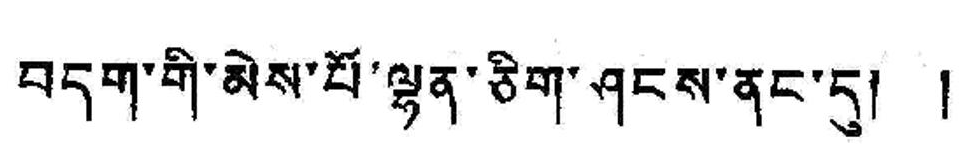བདག་གི་མེས་པོ་ལྷན་ཅིག་ཤངས་ནང་དུ། །
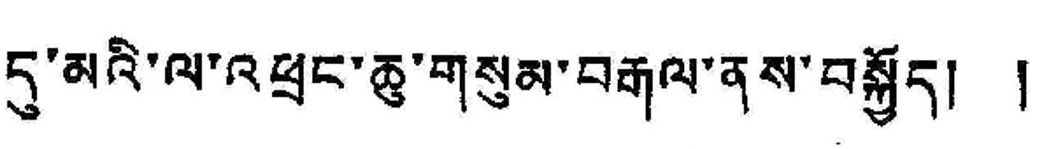དུ་མའི་ལ་འཕྲང་ཆུ་གསུམ་བརྒལ་ནས་བསྐྱོད། །
